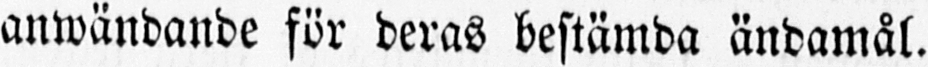anwändande för deras bestämda ändamål.
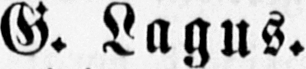G. Lagus.
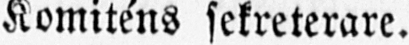Komiténs sekreterare.
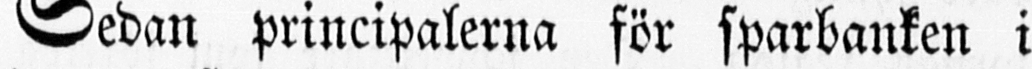Sedan principalerna för sparbanken i
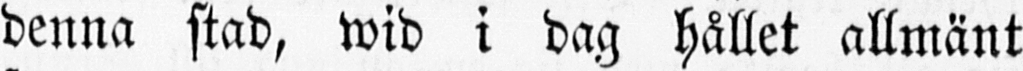denna stad, wid i dag hållet allmänt
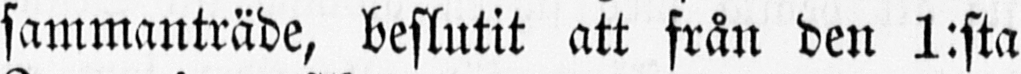sammanträde, beslutit att från den 1:sta
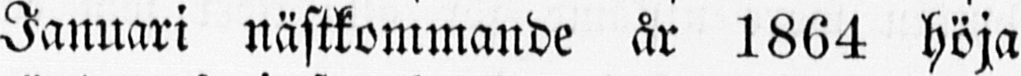Januari nästkommande år 1864 höja
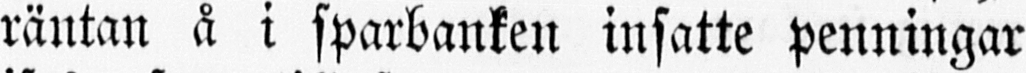räntan å i sparbanken insatte penningar
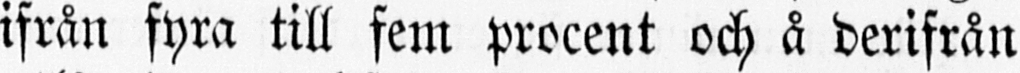ifrån fyra till fem procent och å derifrån
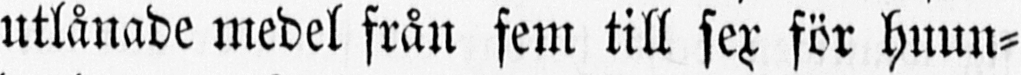utlånade medel från fem till sex för huun-
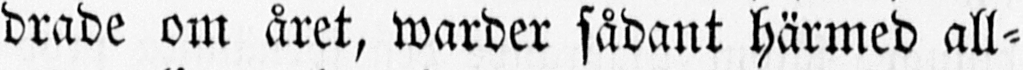drade om året, warder sådant härmed all-
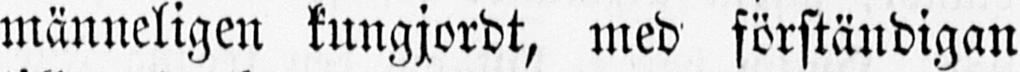männeligen kungjordt, med förständigan
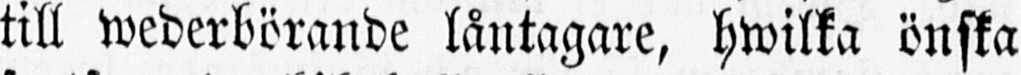till wederbörande låntagare, hwilka önska
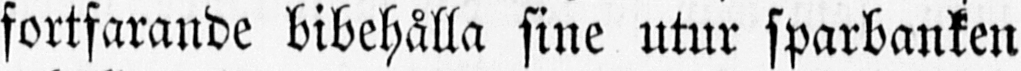fortfarande bibehålla sine utur sparbanken
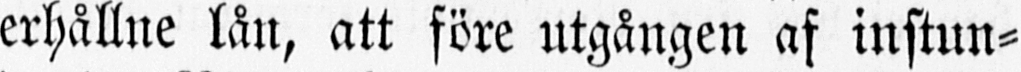erhållne lån, att före utgången af instun-
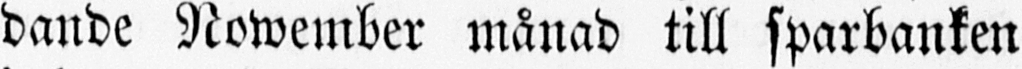dande Nowember månad till sparbanken
